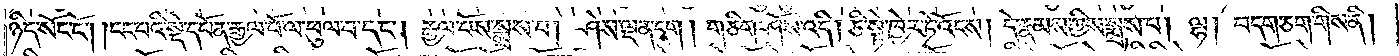ཉིད་སོང་ངོ༌། །ངང་པའི་སྡེ་དཔོན་རྒྱལ་པོ་ལ་ཕུལ་བ་དང༌། རྒྱལ་པོས་སྨྲས་པ། ཤེས་ལྡན་དག །གཅིག་ཤོས་འདི། ཅི་སྟེ་ཁྱེར་ཏེ་འོངས། དེ་རྣམས་ཀྱིས་སྨྲས་པ། ལྷ། བདག་ཅག་གིས་ནི།
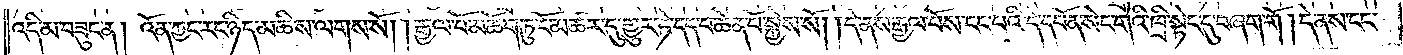འདི་མ་བཟུང་ན། འོན་ཀྱང་རང་ཉིད་མཆིས་ལགས་སོ། །རྒྱལ་པོ་མཆོག་ཏུ་ངོ་མཚར་དུ་གྱུར་ཏེ་དད་པ་ཆེན་པོ་སྐྱེས་སོ། །དེ་ནས་རྒྱལ་པོས་ངང་པའི་དེ་དཔོན་སེང་གེའི་ཁྲི་སྟེང་དུ་བཞག་གོ། །དེ་ནས་ངང་
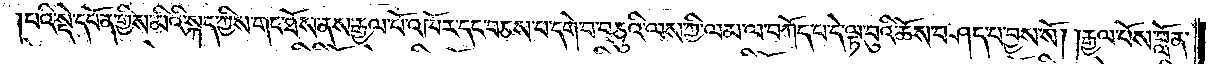པའི་སྡེ་དཔོན་གྱིས་མིའི་སྐད་ཀྱིས་གང་ཐོས་ནས་རྒྱལ་པོ་འཁོར་དང་བཅས་པ་དགེ་བ་བཅུའི་ལས་ཀྱི་ལམ་ལ་བཀོད་པ་དེ་ལྟ་བུའི་ཆོས་བཤད་པ་བྱས་སོ། །རྒྱལ་པོས་བློན་
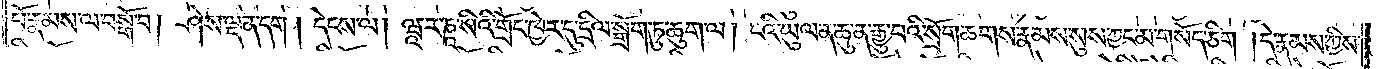པོ་རྣམས་ལ་བསྒོ་བ། ཤེས་ལྡན་དག །དེངས་ལ། ཝཱ་ར་ཎཱ་སིའི་གྲོང་ཁྱེར་དུ་དྲིལ་སྒྲོག་ཏུ་ཆུག་ལ། ངའི་ཡུལ་ན་ཆུ་ན་རྒྱུ་བའི་སྲོག་ཆགས་རྣམས་སུས་ཀྱང་མ་གསོད་ཅིག །དེ་རྣམས་ཀྱིས་
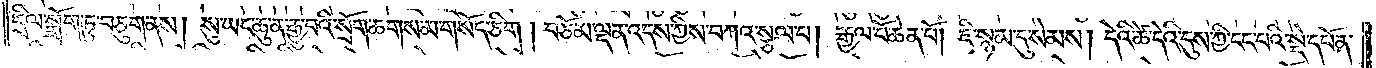དྲིལ་སྒྲོག་ཏུ་བཅུག་ནས། སུ་ཡང་ཆུ་ན་རྒྱུ་བའི་སྲོག་ཆགས་མ་གསོད་ཅིག །བཅོམ་ལྡན་འདས་ཀྱིས་བཀའ་སྩལ་པ། རྒྱལ་པོ་ཆེན་པོ། ཇི་སྙམ་དུ་སེམས། དེའི་ཚེ་དེའི་དུས་ཀྱི་ངང་པའི་སྡེ་དཔོན་
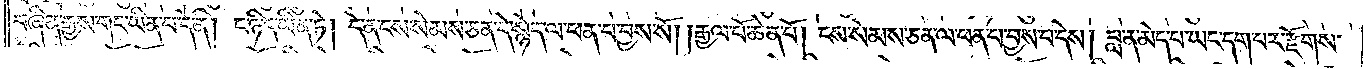བཞིན་རྒྱས་གང་ཡིན་པ་དེ་ནི། ང་ཉིད་ཡིན་ཏེ། དེ་ན་ངས་སེམས་ཅན་དེ་སྙེད་ལ་ཕན་པ་བྱས་སོ། །རྒྱལ་པོ་ཆེན་པོ། ངས་སེམས་ཅན་ལ་ཕན་པ་བྱས་པ་དེས། བླ་ན་མེད་པ་ཡང་དག་པར་རྫོགས་
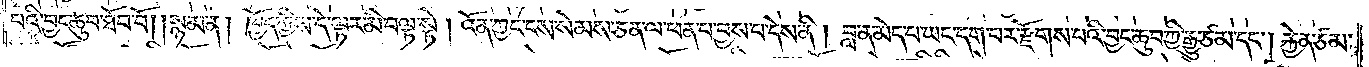པའི་བྱང་ཆུབ་ཐོབ་བོ། །སྙམ་ན། ཁྱོད་ཀྱིས་དེ་ལྟར་མི་བལྟ་སྟེ། འོན་ཀྱང་ངས་སེམས་ཅན་ལ་ཕན་པ་བྱས་པ་དེས་ནི། བླ་ན་མེད་པ་ཡང་དག་པར་རྫོགས་པའི་བྱང་ཆུབ་ཀྱི་རྒྱུ་ཙམ་དང༌། རྐྱེན་ཙམ་
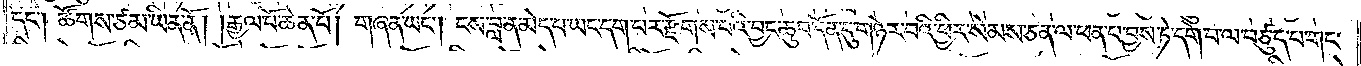དང༌། ཚོགས་ཙམ་ཡིན་ནོ། །རྒྱལ་པོ་ཆེན་པོ། གཞན་ཡང༌། ངས་བླ་ན་མེད་པ་ཡང་དག་པར་རྫོགས་པའི་བྱང་ཆུབ་དོན་དུ་གཉེར་བའི་ཕྱིར་སེམས་ཅན་ལ་ཕན་པ་བྱས་ཏེ་དགེ་བ་ལ་བཙུད་པ་གང་
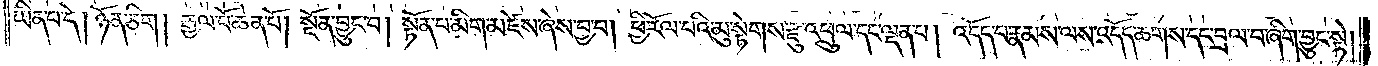ཡིན་པ་དེ། ཉོན་ཅིག །རྒྱལ་པོ་ཆེན་པོ། སྔོན་བྱུང་བ། སྟོན་པ་མིག་མཛེས་ཞེས་བྱ་བ། ཕྱི་རོལ་པའི་མུ་སྟེགས་རྫུ་འཕྲུལ་དང་ལྡན་པ། འདོད་པ་རྣམས་ལས་འདོད་ཆགས་དང་བྲལ་བ་ཞིག་བྱུང་སྟེ།
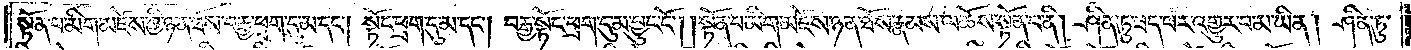སྟོན་པ་མིག་མཛེས་ཀྱི་ཉན་ཐོས་བརྒྱ་ཕྲག་དུ་མ་དང༌། སྟོང་ཕྲག་དུ་མ་དང༌། བརྒྱ་སྟོང་ཕྲག་དུ་མ་བྱུང་ངོ༌། །སྟོན་པ་མིག་མཛེས་ཉན་ཐོས་རྣམས་ལ་ཆོས་སྟོན་པ་ནི། ཤིན་ཏུ་ཟད་པར་འགྱུར་བ་མ་ཡིན། ཤིན་ཏུ་
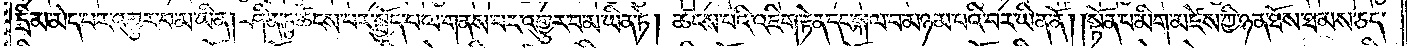དྲི་མ་མེད་པར་འགྱུར་བ་མ་ཡིན། ཤིན་ཏུ་ཚངས་པར་སྤྱོད་པ་ལ་གནས་པར་འགྱུར་བ་མ་ཡིན་ཏེ། ཚངས་པའི་འཇིག་རྟེན་དང་སྐལ་བ་མཉམ་པའི་བར་ཡིན་ནོ། །སྟོན་པ་མིག་མཛེས་ཀྱི་ཉན་ཐོས་ཐམས་ཅད་
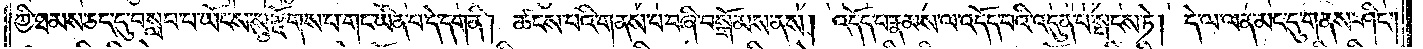ཀྱི་ཐམས་ཅད་དུ་བསླབ་པ་ཡོངས་སུ་རྫོགས་པ་གང་ཡིན་པ་དེ་དག་ནི། ཚངས་པའི་གནས་པ་བཞི་བསྒོམས་ནས། འདོད་པ་རྣམས་ལ་འདོད་པའི་འདུན་པ་སྤངས་ཏེ། དེ་ལ་ལན་མང་དུ་གནས་ཤིང༌།
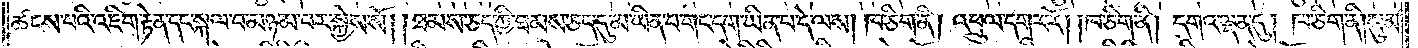ཚངས་པའི་འཇིག་རྟེན་དང་སྐལ་བ་མཉམ་པར་སྐྱེས་སོ། །ཐམས་ཅད་ཀྱི་ཐམས་ཅད་དུ་མ་ཡིན་པ་གང་དག་ཡིན་པ་དེ་ལས། ཁ་ཅིག་ནི། འཕྲུལ་དགར་རོ། །ཁ་ཅིག་ནི། དགའ་ལྡན་དུ། ཁ་ཅིག་ནི། སུམ་
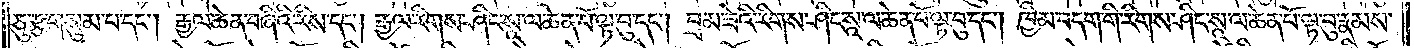ཅུ་རྩ་གསུམ་པ་དང༌། རྒྱལ་ཆེན་བཞིའི་རིས་དང༌། རྒྱལ་རིགས་ཤིང་སཱ་ལ་ཆེན་པོ་ལྟ་བུ་དང༌། བྲམ་ཟེའི་རིགས་ཤིང་སཱ་ལ་ཆེན་པོ་ལྟ་བུ་དང༌། ཁྱིམ་བདག་གི་རིགས་ཤིང་སཱ་ལ་ཆེན་པོ་ལྟ་བུ་རྣམས་
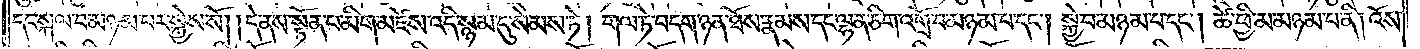དང་སྐལ་བ་མཉམ་པར་སྐྱེས་སོ། །དེ་ནས་སྟོན་པ་མིག་མཛེས་འདི་སྙམ་དུ་སེམས་ཏེ། གལ་ཏེ་བདག་ཉན་ཐོས་རྣམས་དང་ལྷན་ཅིག་འགྲོ་བ་མཉམ་པ་དང༌། སྐྱེ་བ་མཉམ་པ་དང༌། ཚེ་ཕྱི་མ་མཉམ་པ་ནི། འོས་
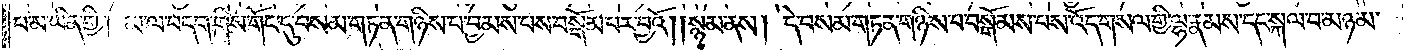པ་མ་ཡིན་གྱི། མ་ལ་བདག་གིས་གོང་དུ་བསམ་གཏན་གཉིས་པ་བྱམས་པས་བསྒོམ་པར་བྱའོ། །སྙམ་ནས། དེ་བསམ་གཏན་གཉིས་པ་བསྒོམས་པས་འོད་གསལ་གྱི་ལྷ་རྣམས་དང་སྐལ་བ་མཉམ་
